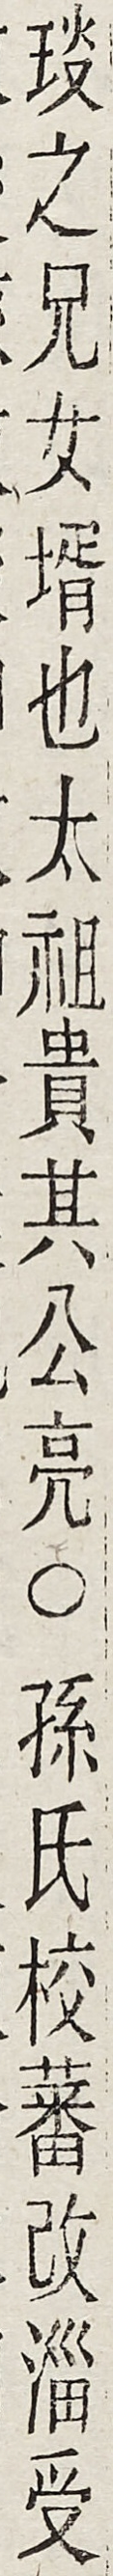琰之兄女壻也太祖貴其公亮○孫氏校蕃改淄受
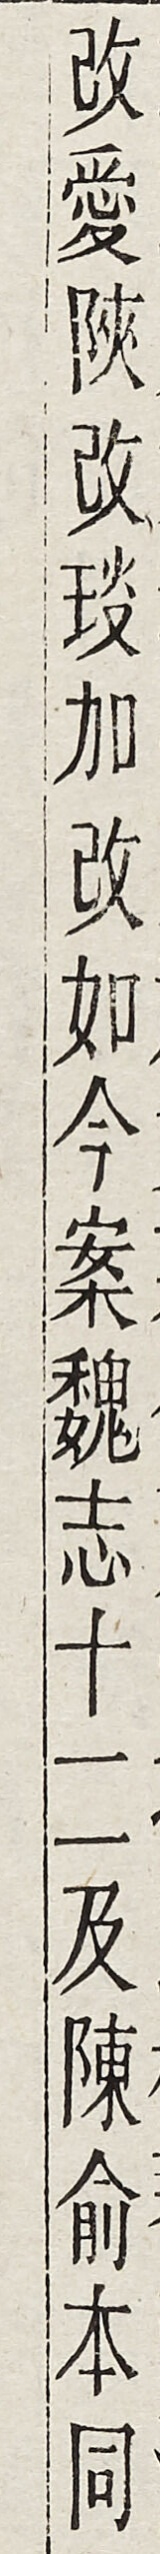改愛陝改琰加改如今案魏志十二及陳俞本同
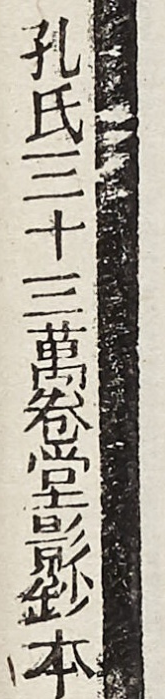孔氏三十三萬卷堂影鈔本
